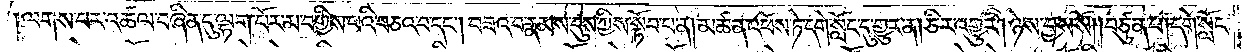ལགས་པར་འཚལ་བཞིན་དུ་ལྷག་པོར་མ་བགྱིས་པའི་བཅའ་བ་དང༌། བཟའ་བ་རྣམས་དུས་ཀྱིས་སྟོབ་པ་ན། མཚན་འཕོས་ཏེ་དགེ་སློང་དུ་གྱུར་ན། ཅིར་འགྱུར། ཉེས་བྱས་སོ། །བཙུན་པ། དགེ་སློང་
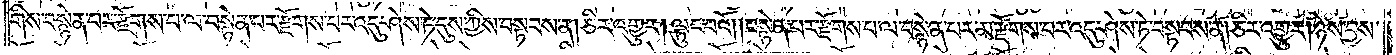གིས་བསྙེན་པར་རྫོགས་པ་ལ་བསྙེན་པར་རྫོགས་པར་འདུ་ཤེས་ཏེ་དུས་ཀྱིས་བསྟབས་ན། ཅིར་འགྱུར། ལྟུང་བའོ༎བསྙེན་པར་རྫོགས་པ་ལ་བསྙེན་པར་མ་རྫོགས་པར་འདུ་ཤེས་ཏེ་བསྟབས་ན། ཅིར་འགྱུར། ཉེས་བྱས་
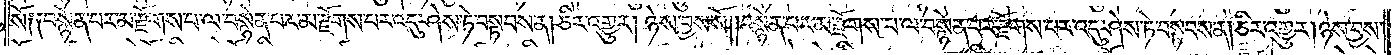སོ༑ ༑བསྙེན་པར་མ་རྫོགས་པ་ལ་བསྙེན་པར་མ་རྫོགས་པར་འདུ་ཤེས་ཏེ་བསྟབས་ན། ཅིར་འགྱུར། ཉེས་བྱས་སོ། །བསྙེན་པར་མ་རྫོགས་པ་ལ་བསྙེན་པར་རྫོགས་པར་འདུ་ཤེས་ཏེ་བསྟབས་ན། ཅིར་འགྱུར། ཉེས་བྱས་
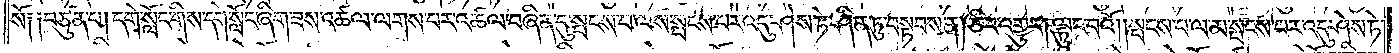སོ། །བཙུན་པ། དགེ་སློང་གིས་དགེ་སློང་ཞིག་ཟས་འཚལ་ལགས་པར་འཚལ་བཞིན་དུ་སྤངས་པ་ལས་སྤངས་པར་འདུ་ཤེས་ཏེ་ཤིན་ཏུ་བསྟབས་ན། ཅིར་འགྱུར། ལྟུང་བའོ། །སྤངས་པ་ལ་མ་སྤངས་པར་འདུ་ཤེས་ཏེ་
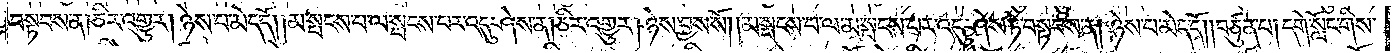བསྟབས་ན། ཅིར་འགྱུར། ཉེས་པ་མེད་དོ། །མ་སྤངས་པ་ལ་སྤངས་པར་འདུ་ཤེས་ན། ཅིར་འགྱུར། ཉེས་བྱས་སོ། །མ་སྤངས་པ་ལ་མ་སྤངས་པར་འདུ་ཤེས་ཏེ་བསྟབས་ན། ཉེས་པ་མེད་དོ། །བཙུན་པ། དགེ་སློང་གིས་
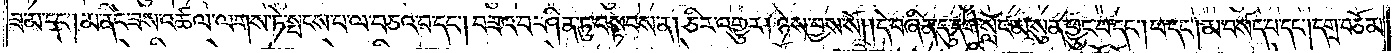ཟ་མ་དང༌། མ་ནིང་ཟས་འཚལ་ལགས་ཏེ་སྤངས་པ་ལ་བཅའ་བ་དང༌། བཟའ་བ་ཤིན་ཏུ་བསྟབས་ན། ཅིར་འགྱུར། ཉེས་བྱས་སོ། །དེ་བཞིན་དུ་དགེ་སློང་མ་སུན་ཕྱུང་བ་དང༌། ཕ་དང༌། མ་བསད་པ་དང༌། དགྲ་བཅོམ་
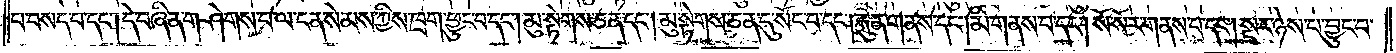པ་བསད་པ་དང༌། དེ་བཞིན་གཤེགས་པ་ལ་ངན་སེམས་ཀྱིས་ཁྲག་ཕྱུང་བ་དང༌། མུ་སྟེགས་ཅན་དང༌། མུ་སྟེགས་ཅན་དུ་སོང་བ་དང༌། རྐུན་གནས་དང༌། མི་གནས་པ་དང༌། སོ་སོར་གནས་པ་དང༌། སྔར་ཉེས་པ་བྱུང་བ་
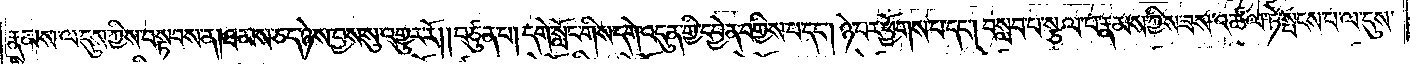རྣམས་ལ་དུས་ཀྱིས་བསྟབས་ན། ཐམས་ཅད་ཉེས་བྱས་སུ་འགྱུར་རོ། །བཙུན་པ། དགེ་སློང་གིས་དགེ་འདུན་གྱི་དབྱེན་བགྱིས་པ་དང༌། ཉེ་བར་ཕྱོགས་པ་དང༌། བསླབ་པ་སྩལ་པ་རྣམས་ཀྱིས་ཟས་འཚལ་ཏེ་སྤངས་པ་ལ་དུས་
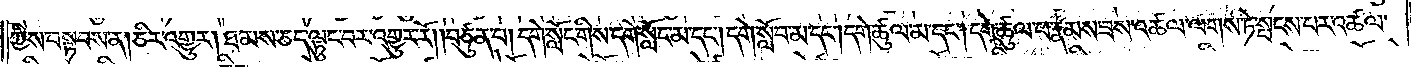ཀྱིས་བསྟབས་ན། ཅིར་འགྱུར། ཐམས་ཅད་ལྟུང་བར་འགྱུར་རོ། །བཙུན་པ། དགེ་སློང་གིས་དགེ་སློང་མ་དང༌། དགེ་སློབ་མ་དང༌། དགེ་ཚུལ་མ་དང༌། དགེ་ཚུལ་ཕ་རྣམས་ཟས་འཚལ་ལགས་ཏེ་སྤངས་པར་འཚལ་
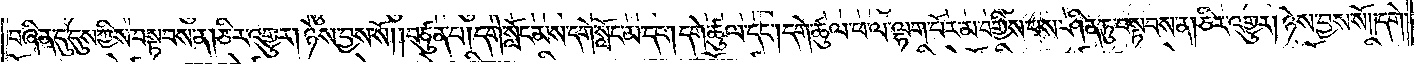བཞིན་དུ་དུས་ཀྱིས་བསྟབས་ན། ཅིར་འགྱུར། ཉེས་བྱས་སོ། །བཙུན་པ། དགེ་སློང་མས་དགེ་སློང་མ་དང༌། དགེ་ཚུལ་དང༌། དགེ་ཚུལ་ཕ་ལ་ལྷག་པོར་མ་བགྱིས་པས་ཤིན་ཏུ་བསྟབས་ན། ཅིར་འགྱུར། ཉེས་བྱས་སོ། །དགེ་
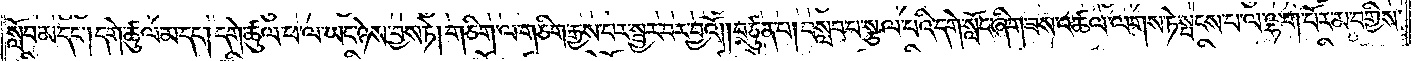སློབ་མ་དང༌། དགེ་ཚུལ་མ་དང༌། དགེ་ཚུལ་ཕ་ལ་ཡང་ཉེས་བྱས་ཏེ། གཅིག་ལ་གཅིག་རྒྱས་པར་སྦྱར་བར་བྱའོ། །བཙུན་པ། བསླབ་པ་སྩལ་པའི་དགེ་སློང་ཞིག་ཟས་འཚལ་ལགས་ཏེ་སྤངས་པ་ལ་ལྷག་པོར་མ་བགྱིས་
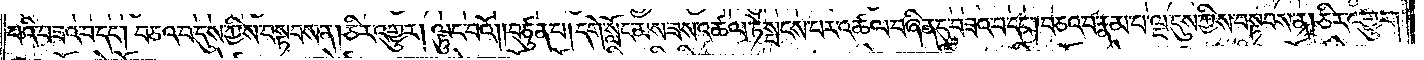པའི་བཟའ་བ་དང༌། བཅའ་བ་དུས་ཀྱིས་བསྟབས་ན། ཅིར་འགྱུར། ལྟུང་བའོ། །བཙུན་པ། དགེ་སློང་མས་ཟས་འཚལ་ཏེ་སྤངས་པར་འཚལ་བཞིན་དུ་བཟའ་བ་དང༌། བཅའ་བ་རྣམ་པ་ལྔ་དུས་ཀྱིས་བསྟབས་ན། ཅིར་འགྱུར།
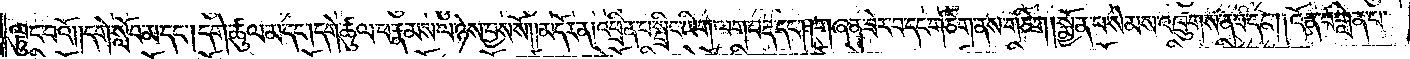ལྟུང་བའོ། །དགེ་སློབ་མ་དང༌། དགེ་ཚུལ་མ་དང༌། དགེ་ཚུལ་ཕ་རྣམས་ལ་ཉེས་བྱས་སོ།    །མདོར་ན། འཕྲིན་པ་སྤྲིང་ཡིག་ལག་བརྡ་དང༌། གཞན་ཟེར་བ་དང་གཅིག་ནས་གཅིག །སྨྱོན་པ་སེམས་འཁྲུགས་ན་བ་དང༌། །འོན་པ་གླེན་པ་
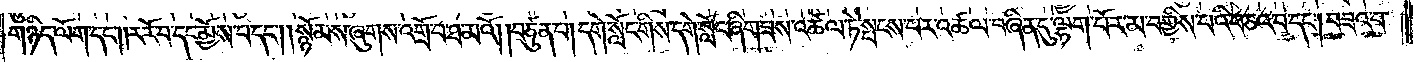གཉིད་ལོག་དང༌། ར་རོ་བ་དང་མྱོས་པ་དང༌། སྙོམས་ཞུགས་འགྲོ་བ་ཐ་མའོ། །བཙུན་པ། དགེ་སློང་གིས་དགེ་སློང་ཞིག་ཟས་འཚལ་ཏེ་སྤངས་པར་འཚལ་བཞིན་དུ་ལྟག་པོར་མ་བགྱིས་པའི་བཅའ་བ་དང༌། བཟའ་བ་
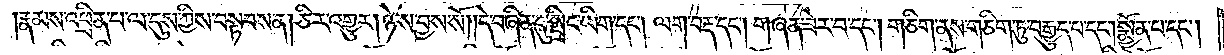རྣམས་འཕྲིན་པ་ལ་དུས་ཀྱིས་བསྟབས་ན། ཅིར་འགྱུར། ཉེས་བྱས་སོ། །དེ་བཞིན་དུ་སྤྲིང་ཡིག་དང༌། ལག་བརྡ་དང༌། གཞན་ཟེར་བ་དང༌། གཅིག་ནས་གཅིག་ཏུ་བརྒྱུད་པ་དང༌། སྨྱོན་པ་དང༌།
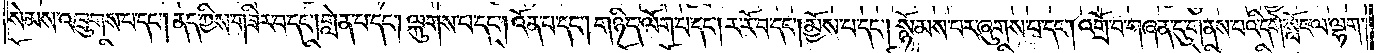སེམས་འཁྲུགས་པ་དང༌། ནད་ཀྱིས་གཟིར་བ་དང༌།གླེན་པ་དང༌། ལྐུགས་པ་དང༌། འོན་པ་དང༌། གཉིད་ལོག་པ་དང༌། ར་རོ་བ་དང༌། མྱོས་པ་དང༌། སྙོམས་པར་ཞུགས་པ་དང༌། འགྲོ་བ་གཞན་དུ་གནས་པའི་དགེ་སློང་ལ་ལྷག་
